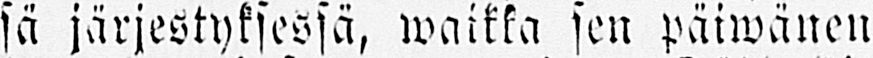sä järjestyksessä, waikka sen päiwänen
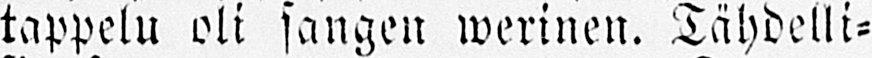tappelu oli sangen werinnen. Tähdelli-
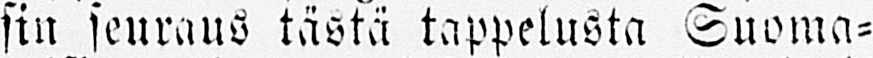sin seuraus tästä tappelusta Suoma-
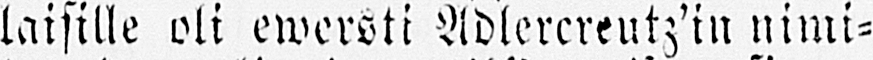laisille oli ewersti Adlerereutz'in nimi-
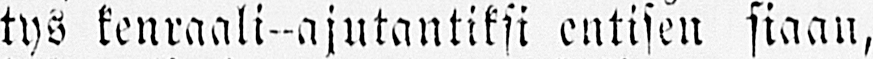tys kenraali-ajutantiksi entisen siaan,
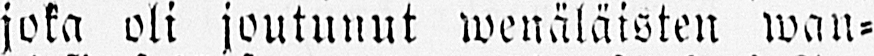joka oli joutunut wenäläisten wan-
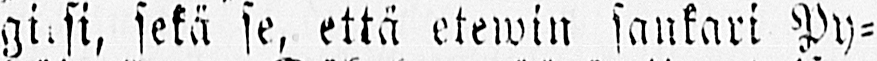giksi, sekä se, että etewin sankari Py-
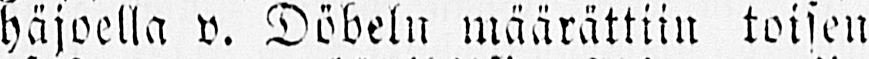häjoella v. Döbeln määrättiin toisen
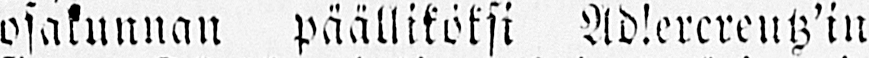osakunnan päälliköksi Adlerereutz'in
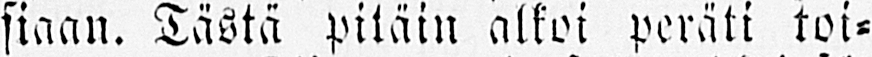siaan. Tästä pitäin alkoi peräti toi-
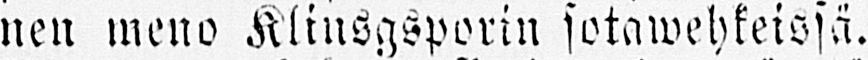nen meno Klinsgsporin sotawehkeissä.
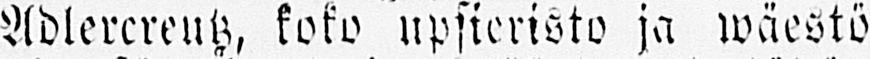Adlerereutz, koko upsieristo ja wäestö
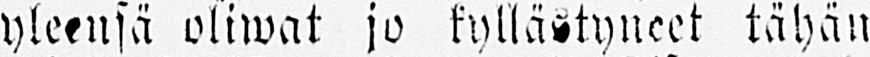yleensä oliwat jo kyllästyneet tähän
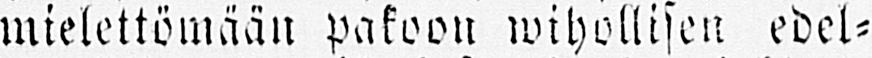mielettömään pakoon wihollisen edel-
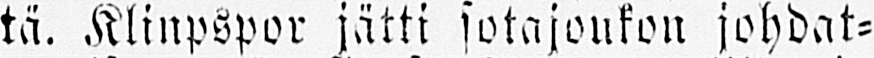tä. Klinpspor jätti sotajoukon johdat-
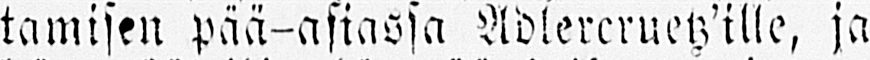tamisen pää-asiassa Adlereruetz'ille, ja
